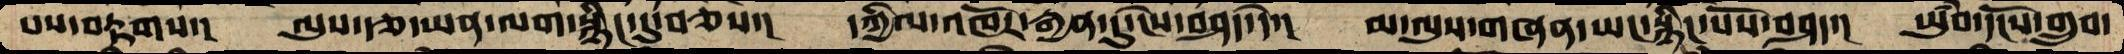པས་བརྟགས་།  ལུས་རྩལ་ཡན་ལག་སྙིང་དུ་བཅས་།   དཀྱིལ་འཁོར་རྒྱན་དུ་ངེས་བཤད་དེ་།   མ་ལུས་གཞན་ཡང་སྙིང་པོས་བཤད་།  ཡུཾབ་དངོས་གྲུབ་
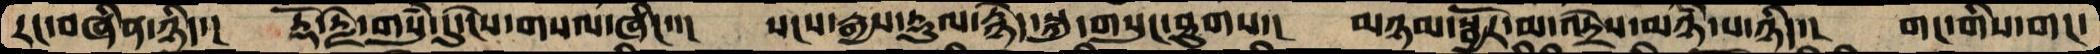རང་བཞིན་ཉིད་།  རྡོ་རྗེ་གསུཾ་དུ་ངེས་གསལ་ཞིང་་།   སངས་རྒྱས་རྡུལ་རྙེད་སྐུ་གསུང་ཐུགས་།  མཉམ་སྦྱོར་མ་འདྲེས་མཉཾ་པ་ཉིད་།  གང་གིས་གང་
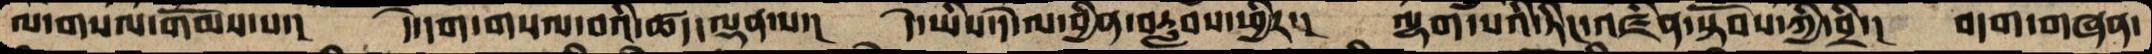ལ་གསལ་གོམས་པ་།  དེ་དག་གསལ་བའི་ཚད་ལྡན་པ་།  དེ་ཡིས་དེ་ལ་བྱིན་བརླབས་ཕྱིར་།  ལྷག་པའི་ཏིང་འཛིན་སྟོབས་ཀྱི་བྲི་།  བདག་གཞན་
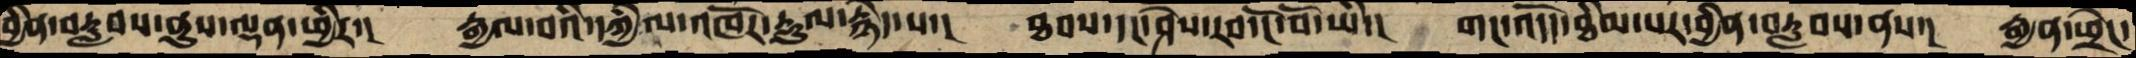བྱིན་བརླབས་ནུས་ལྡན་ཕྱིར་།  རྒྱལ་བའི་དཀྱིལ་འཁོར་རྡུལ་རྙེད་པ་།  ཐབས་དང་ཤེས་རབ་ངོ་བོ་ཡི་།  གང་འདོད་ཐིམ་པར་བྱིན་བརླབས་ནས་།  རྒྱན་ཕྲེང་
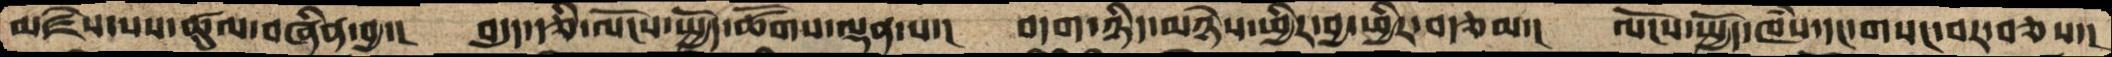མཛེས་པས་ཚུལ་བཞིན་བྱ་།  བདུད་རྩི་ལོངས་སྤྱོད་ཚོགས་ལྡན་པ་།  བདག་ཉིད་མཉེས་ཕྱིར་བྱ་ཕྱིར་བརྩམ་།  ལོངས་སྤྱོད་ཁཾས་དང་གསང་བར་བཅས་།
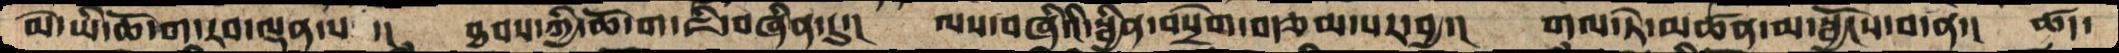མེ་ཡི་ཆོ་ག་རབ་ལྡན་པ་།  ཐབས་ཀྱི་ཆོ་ག་ཇི་བཞིན་དུ་།  ལས་བཞིའི་སྦྱིན་བསྲེག་བརྩམ་པར་བྱ་།  གལ་ཏེ་མཚན་མ་སྦྱོངས་བ་ན་།  ཚད་
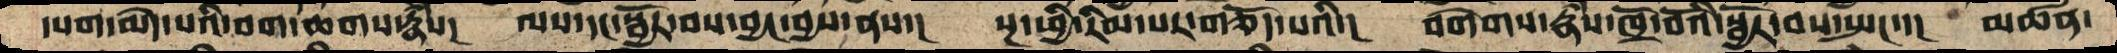དཔག་མེད་པའི་བག་ཆགས་རྣཾས།   ལས་དང་སྦྱོར་བས་བྱང་བྱས་ནས་།  སྔ་ཕྱི་རིམ་པར་གཅོད་པའི་།  བགེགས་རྣཾས་ཁྲོ་བོའི་སྦྱོར་བས་སྤང་་།  མཚན་
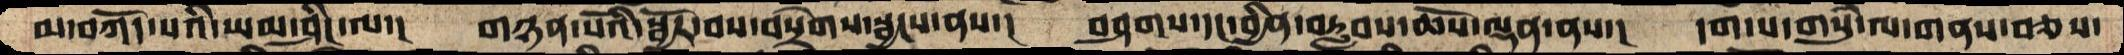མ་བཀོད་པའི་ཡམ་ཤིང་ལ་།   གཉན་པོའི་སྦྱོར་བས་བསྲེགས་སྦྱངས་ནས་།  བཤགས་དང་བྱིན་བརླབས་ཆོས་ལྡན་ནས་།  དག་པ་གསུཾ་ལ་གནས་བཅས་
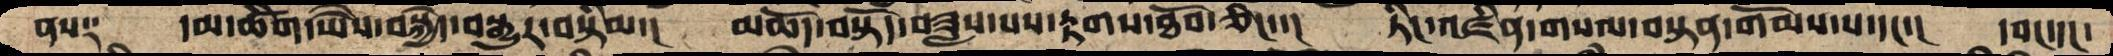ནས༑  དམ་ཚིག་ཡཻས་བསྐྱེད་བསྒྱུར་བསྟིམ་།    མཆོད་བསྟོད་བཟླས་པས་རྟགས་ཐོབ་ཅིང་་།  ཏིང་འཛིན་གསལ་བསྟན་གོམས་པ་དང་།  དབང་དང་
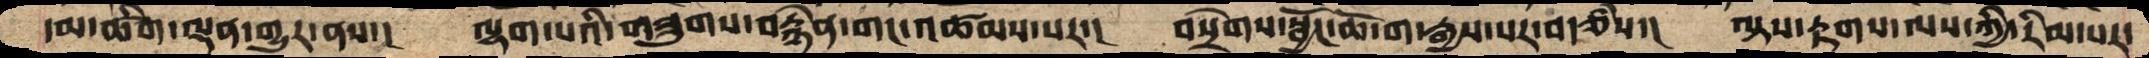དམ་ཚིག་ལྡན་གྱུར་ནས་།  ལྷག་པའི་གཟུགས་བརྙེན་གང་འཚམས་པར་།   བསྲེགས་སྦྱོང་ཆོ་ག་རྒྱས་པར་བརྩཾས་།  ལྟས་རྟགས་ལས་ཀྱི་རིམ་པར་
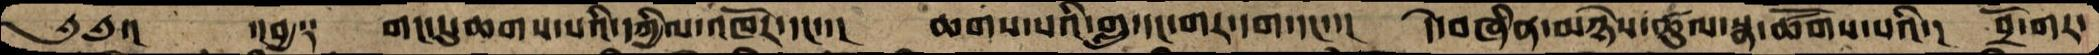༄༅་།     ་།བྱ༑    གང་དུ་ཆགས་པའི་དཀྱིལ་འཁོར་དང་་།   ཆགས་པའི་གླུ་དང་གར་དག་དང་་།  དེ་བཞིན་མཉེས་ཚུལ་སྣ་ཚོགས་པའི་།  བྲོ་གར་
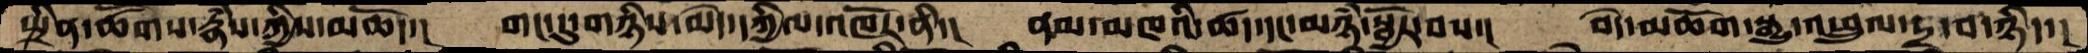སྤྲིན་ཚོགས་རྣཾས་ཀྱིས་མཆོད་།   གང་དུ་གཉིས་མེད་དཀྱིལ་འཁོར་ནི་།  ནམ་མཁའི་ཚད་དངམཉཾ་སྦྱོར་བས་།   བདེ་མཆོག་སྒྱུ་འཕྲུལ་དྲ་བ་ཉིད་།
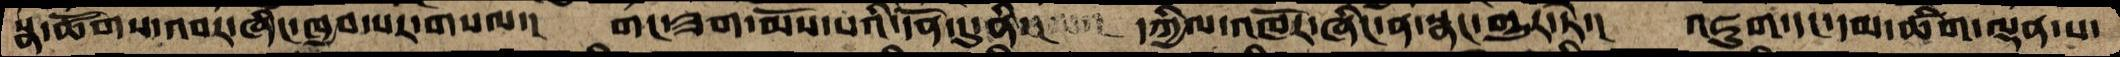སྣ་ཚོགས་འབར་ཞིང་ཁྱབ་པར་གསལ་།  གང་ཟག་མོས་པའི་དོན་དུ་ནི་།    དཀྱིལ་འཁོར་ཞིང་ན་སྣང་གྱུར་ཏེ་།   འཇུག་དང་དམ་ཚིག་ལྡན་པ་
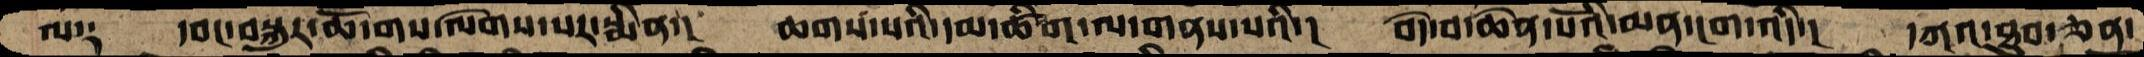ལ༑  དབང་བསྐུར་ཆོ་གས་ལེགས་པར་སྨིན་།   ཆགས་པའི་དམ་ཚིག་ལ་གནས་པའི་།   བདེ་བ་ཆེན་པོའི་མན་ངག་འདི་།   དཀའ་ཐུབ་ཅན་
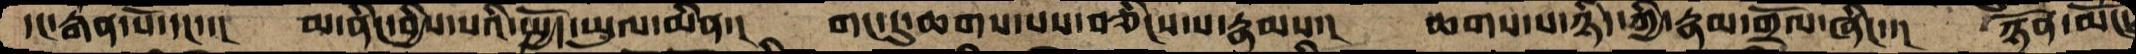དང་རྒན་པོ་དང་་།  མ་ནིང་བྱིས་པའི་སྤྱོད་ཡུལ་མིན་།  གང་དུ་ཆགས་པས་བཅིངས་པ་རྣམས་།   ཆགས་པ་ཉིད་ཀྱི་རྣམ་གྲོལ་ཞིང་་།   ཉོན་མོངས
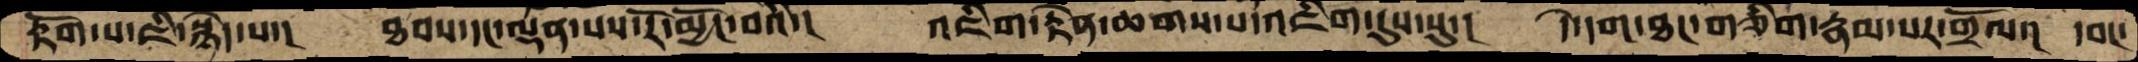རྟོག་པ་ཇི་སྙེད་པ་།   ཐབས་དང་ལྡན་པས་རོ་མྱོང་བའི་།    འཇིག་རྟེན་ཆགས་པ་འཇིག་དུས་སུ་།   དེ་དག་ཐང་གཅིག་རྣམ་པར་གྲོལ་།  དབང་
